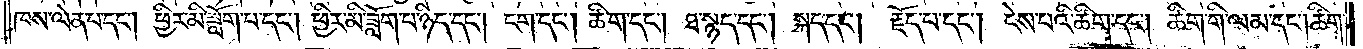ཁས་ལེན་པ་དང༌། ཕྱིར་མི་ཟློག་པ་དང༌། ཕྱིར་མི་ཟློག་པ་ཉིད་དང༌། ངག་དང༌། ཚིག་དང༌། ཐ་སྙད་དང༌། སྐད་དང༌། རྗོད་པ་དང༌། ངེས་པའི་ཚིག་དང༌། ཚིག་གི་ལམ་དང༌།ཚིག་
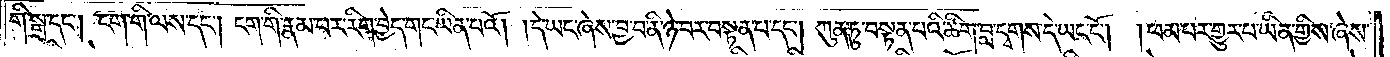གི་སྒྲ་དང༌། ངག་གི་ལས་དང༌། ངག་གི་རྣམ་པར་རིག་བྱེད་གང་ཡིན་པའོ། །དེ་ཡང་ཞེས་བྱ་བ་ནི་ཉེ་བར་བསྟན་པ་དང༌། ཀུན་ཏུ་བསྟན་པའི་ཚིག་བླ་དྭགས་དེ་ཡང་ངོ༌། །ཕམ་པར་གྱུར་པ་ཡིན་གྱིས་ཞེས་
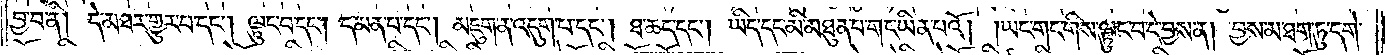བྱ་བ་ནི། དེ་མཐར་གྱུར་པ་དང༌། ལྟུང་བ་དང༌། དམན་པ་དང༌། མཇུག་ན་འདུག་པ་དང༌། ཐ་ཆད་དང༌། ཡིད་དང་མི་མཐུན་པ་གང་ཡིན་པའོ། །ཡང་གང་གིས་ལྟུང་བ་དེ་བྱས་ན། བྱས་མ་ཐག་ཏུ་དགེ་
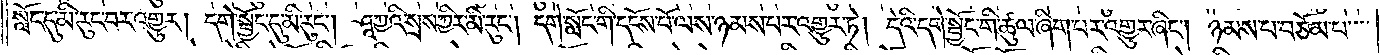སློང་དུ་མི་རུང་བར་འགྱུར། དགེ་སྦྱོང་དུ་མི་རུང༌། ཤཱཀྱའི་སྲས་ཀྱིར་མི་རུང༌། དགེ་སློང་གི་དངོས་པོ་ལས་ཉམས་པར་འགྱུར་ཏེ། དེའི་དགེ་སྦྱོང་གི་ཚུལ་ཞིག་པར་འགྱུར་ཞིང༌། ཉམས་པ་བཅོམ་པ་
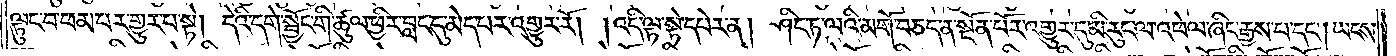ལྟུང་བ་ཕམ་པར་གྱུར་པ་སྟེ། དེའི་དགེ་སྦྱོང་གི་ཚུལ་ཕྱིར་བླང་དུ་མེད་པར་འགྱུར་རོ། །འདི་ལྟ་སྟེ་དཔེར་ན། ཤིང་ཏ་ལའི་མགོ་བཅད་ན་སྔོན་པོར་འགྱུར་དུ་མི་རུང་ལ་འཕེལ་ཞིང་རྒྱས་པ་དང༌། ཡངས་
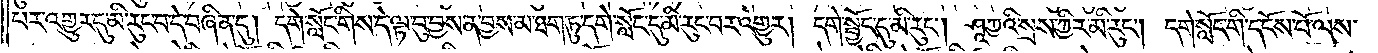པར་འགྱུར་དུ་མི་རུང་བ་དེ་བཞིན་དུ། དགེ་སློང་གིས་དེ་ལྟ་བུ་བྱས་ན་བྱས་མ་ཐག་ཏུ་དགེ་སློང་དུ་མི་རུང་བར་འགྱུར། དགེ་སྦྱོང་དུ་མི་རུང༌། ཤཱཀྱའི་སྲས་ཀྱིར་མི་རུང༌། དགེ་སློང་གི་དངོས་པོ་ལས་
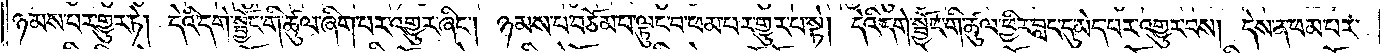ཉམས་པར་གྱུར་ཏེ། དེའི་དགེ་སྦྱོང་གི་ཚུལ་ཞིག་པར་འགྱུར་ཞིང༌། ཉམས་པ་བཅོམ་པ་ལྟུང་བ་ཕམ་པར་གྱུར་པ་སྟེ། དེའི་དགེ་སྦྱོང་གི་ཚུལ་ཕྱིར་བླང་དུ་མེད་པར་འགྱུར་བས། དེས་ན་ཕམ་པར་
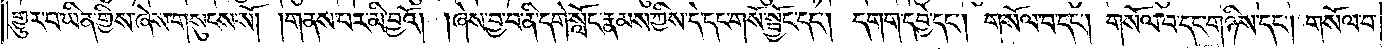གྱུར་བ་ཡིན་གྱིས་ཞེས་གསུངས་སོ། །གནས་པར་མི་བྱའོ། །ཞེས་བྱ་བ་ནི་དགེ་སློང་རྣམས་ཀྱིས་དེ་དང་གསོ་སྦྱོང་དང༌། དགག་དབྱེ་དང༌། གསོལ་བ་དང༌། གསོལ་བ་དང་གཉིས་དང༌། གསོལ་བ་
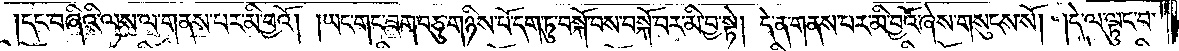དང་བཞིའི་ལས་ལ་གནས་པར་མི་བྱའོ། །ཡང་གང་ཟག་བཅུ་གཉིས་པོ་དག་ཏུ་བསྐོ་བས་བསྐོ་བར་མི་བྱ་སྟེ། དེ་ན་གནས་པར་མི་བྱའོ་ཞེས་གསུངས་སོ། །དེ་ལ་ལྟུང་བ་
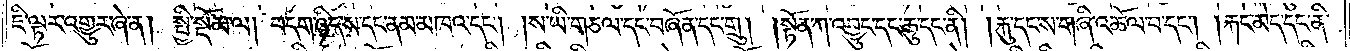ཇི་ལྟར་འགྱུར་ཞེ་ན། སྤྱི་སྡོམ་ལ། བདག་ཉིད་ས་དང་ནམ་མཁའ་དང༌། །ས་ཡི་གཅལ་དང་བཞོན་དང་གྲུ། །སྟོན་ཀ་འབྱུང་དང་ཆུ་དང་ནི། །རྐུ་དང་ས་གཞི་འཆོལ་བ་དང༌། །རྐང་མེད་དང་ནི་
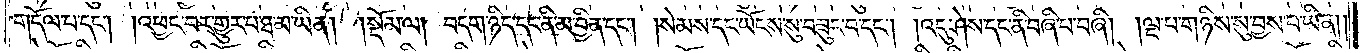གདོལ་པ་དང༌། །འཕྱང་བར་གྱུར་པ་ཐ་མ་ཡིན། །སྡོམ་ལ། བདག་ཉིད་དང་ནི་མ་བྱིན་དང༌། །སེམས་དང་ཡོངས་སུ་བཟུང་བ་དང༌། །འདུ་ཤེས་དང་ནི་བཞི་པ་བཞི། །ལྔ་པ་གཉིས་སུ་བྱས་པ་ཡིན༎
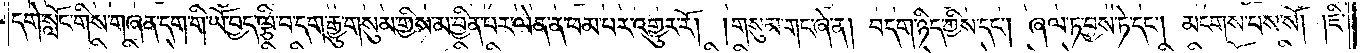དགེ་སློང་གིས་གཞན་དག་གི་ཡོ་བྱད་ལྕི་བ་དག་རྒྱུ་གསུམ་གྱིས་མ་བྱིན་པར་ལེན་ན་ཕམ་པར་འགྱུར་རོ། །གསུམ་གང་ཞེ་ན། བདག་ཉིད་ཀྱིས་དང༌། ཞལ་ཏ་བྱས་ཏེ་དང༌། མངགས་པས་སོ། །ཇི་
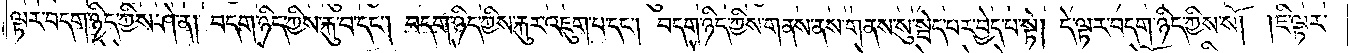ལྟར་བདག་ཉིད་ཀྱིས་ཤེ་ན། བདག་ཉིད་ཀྱིས་རྐུ་བ་དང༌། བདག་ཉིད་ཀྱིས་རྐུར་འཇུག་པ་དང༌། བདག་ཉིད་ཀྱིས་གནས་ནས་གནས་སུ་སྦེད་པར་བྱེད་པ་སྟེ། དེ་ལྟར་བདག་ཉིད་ཀྱིས་སོ། །ཇི་ལྟར་
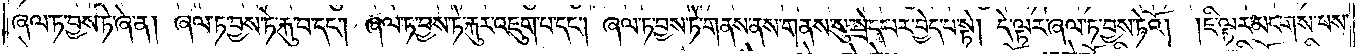ཞལ་ཏ་བྱས་ཏེ་ཞེ་ན། ཞལ་ཏ་བྱས་ཏེ་རྐུ་བ་དང༌། ཞལ་ཏ་བྱས་ཏེ་རྐུར་འཇུག་པ་དང༌། ཞལ་ཏ་བྱས་ཏེ་གནས་ནས་གནས་སུ་སྦེད་པར་བྱེད་པ་སྟེ། དེ་ལྟར་ཞལ་ཏ་བྱས་ཏེའོ། །ཇི་ལྟར་མངགས་པས་
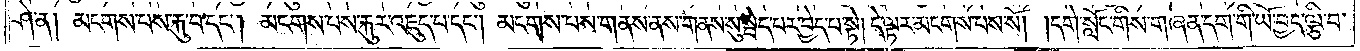ཤེ་ན། མངགས་པས་རྐུ་བ་དང༌། མངགས་པས་རྐུར་འཇུད་པ་དང༌། མངགས་པས་གནས་ནས་གནས་སུ་སྦེད་པར་བྱེད་པ་སྟེ། དེ་ལྟར་མངགས་པས་སོ། །དགེ་སློང་གིས་གཞན་དག་གི་ཡོ་བྱད་ལྕི་བ་
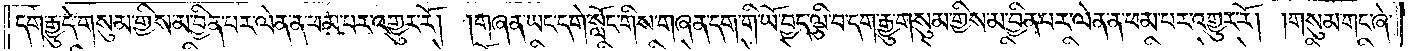དག་རྒྱུ་དེ་གསུམ་གྱིས་མ་བྱིན་པར་ལེན་ན་ཕམ་པར་འགྱུར་རོ། །གཞན་ཡང་དགེ་སློང་གིས་གཞན་དག་གི་ཡོ་བྱད་ལྕི་བ་དག་རྒྱུ་གསུམ་གྱིས་མ་བྱིན་པར་ལེན་ན་ཕམ་པར་འགྱུར་རོ། །གསུམ་གང་ཞེ་
